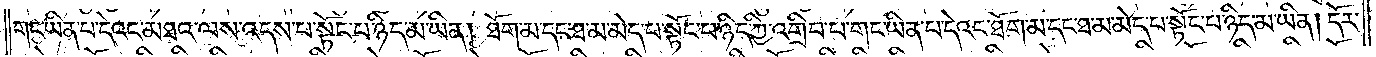གང་ཡིན་པ་དེའང་མཐའ་ལས་འདས་པ་སྟོང་པ་ཉིད་མ་ཡིན། ཐོག་མ་དང་ཐ་མ་མེད་པ་སྟོང་པ་ཉིད་ཀྱི་འགྲིབ་པ་གང་ཡིན་པ་དེའང་ཐོག་མ་དང་ཐ་མ་མེད་པ་སྟོང་པ་ཉིད་མ་ཡིན། དོར་
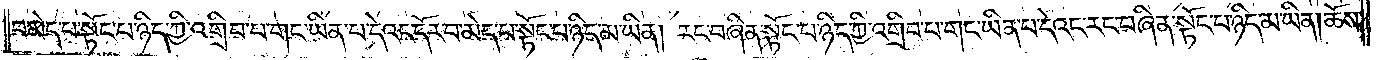པ་མེད་པ་སྟོང་པ་ཉིད་ཀྱི་འགྲིབ་པ་གང་ཡིན་པ་དེའང་དོར་བ་མེད་པ་སྟོང་པ་ཉིད་མ་ཡིན། རང་བཞིན་སྟོང་པ་ཉིད་ཀྱི་འགྲིབ་པ་གང་ཡིན་པ་དེའང་རང་བཞིན་སྟོང་པ་ཉིད་མ་ཡིན། ཆོས་
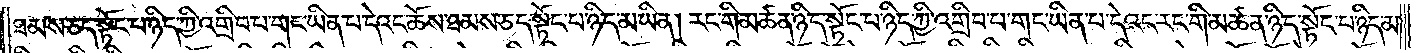ཐམས་ཅད་སྟོང་པ་ཉིད་ཀྱི་འགྲིབ་པ་གང་ཡིན་པ་དེའང་ཆོས་ཐམས་ཅད་སྟོང་པ་ཉིད་མ་ཡིན། རང་གི་མཚན་ཉིད་སྟོང་པ་ཉིད་ཀྱི་འགྲིབ་པ་གང་ཡིན་པ་དེའང་རང་གི་མཚན་ཉིད་སྟོང་པ་ཉིད་མ་
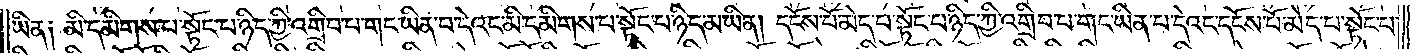ཡིན༏ མི་དམིགས་པ་སྟོང་པ་ཉིད་ཀྱི་འགྲིབ་པ་གང་ཡིན་པ་དེའང་མི་དམིགས་པ་སྟོང་པ་ཉིད་མ་ཡིན། དངོས་པོ་མེད་པ་སྟོང་པ་ཉིད་ཀྱི་འགྲིབ་པ་གང་ཡིན་པ་དེའང་དངོས་པོ་མེད་པ་སྟོང་པ་
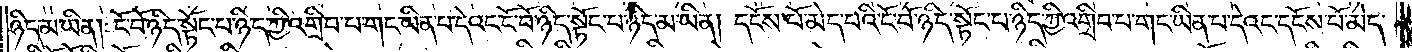ཉིད་མ་ཡིན། ངོ་བོ་ཉིད་སྟོང་པ་ཉིད་ཀྱི་འགྲིབ་པ་གང་ཡིན་པ་དེའང་ངོ་བོ་ཉིད་སྟོང་པ་ཉིད་མ་ཡིན། དངོས་པོ་མེད་པའི་ངོ་བོ་ཉིད་སྟོང་པ་ཉིད་ཀྱི་འགྲིབ་པ་གང་ཡིན་པ་དེའང་དངོས་པོ་མེད་
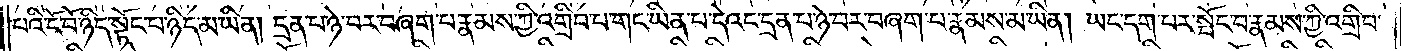པའི་ངོ་བོ་ཉིད་སྟོང་པ་ཉིད་མ་ཡིན། དྲན་པ་ཉེ་བར་བཞག་པ་རྣམས་ཀྱི་འགྲིབ་པ་གང་ཡིན་པ་དེའང་དྲན་པ་ཉེ་བར་བཞག་པ་རྣམས་མ་ཡིན། ཡང་དག་པར་སྤོང་བ་རྣམས་ཀྱི་འགྲིབ་
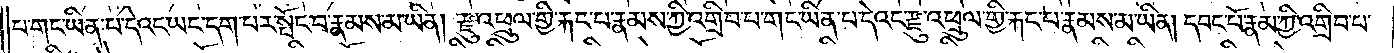པ་གང་ཡིན་པ་དེའང་ཡང་དག་པར་སྤོང་བ་རྣམས་མ་ཡིན། རྫུ་འཕྲུལ་གྱི་རྐང་པ་རྣམས་ཀྱི་འགྲིབ་པ་གང་ཡིན་པ་དེའང་རྫུ་འཕྲུལ་གྱི་རྐང་པ་རྣམས་མ་ཡིན། དབང་པོ་རྣམས་ཀྱི་འགྲིབ་པ་
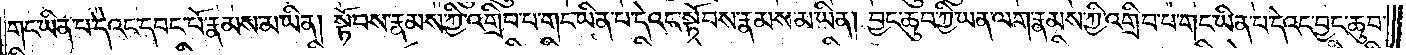གང་ཡིན་པ་དེའང་དབང་པོ་རྣམས་མ་ཡིན། སྟོབས་རྣམས་ཀྱི་འགྲིབ་པ་གང་ཡིན་པ་དེའང་སྟོབས་རྣམས་མ་ཡིན། བྱང་ཆུབ་ཀྱི་ཡན་ལག་རྣམས་ཀྱི་འགྲིབ་པ་གང་ཡིན་པ་དེའང་བྱང་ཆུབ་
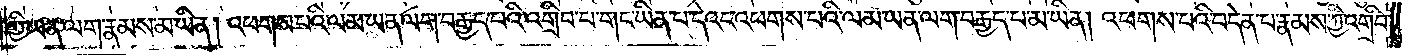ཀྱི་ཡན་ལག་རྣམས་མ་ཡིན། འཕགས་པའི་ལམ་ཡན་ལག་བརྒྱད་པའི་འགྲིབ་པ་གང་ཡིན་པ་དེའང་འཕགས་པའི་ལམ་ཡན་ལག་བརྒྱད་པ་མ་ཡིན། འཕགས་པའི་བདེན་པ་རྣམས་ཀྱི་འགྲིབ་
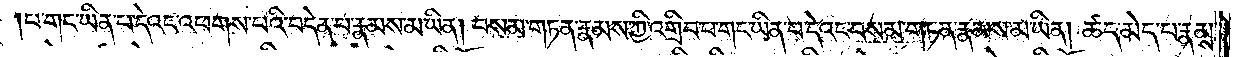པ་གང་ཡིན་པ་དེའང་འཕགས་པའི་བདེན་པ་རྣམས་མ་ཡིན། བསམ་གཏན་རྣམས་ཀྱི་འགྲིབ་པ་གང་ཡིན་པ་དེའང་བསམ་གཏན་རྣམས་མ་ཡིན། ཚད་མེད་པ་རྣམས་
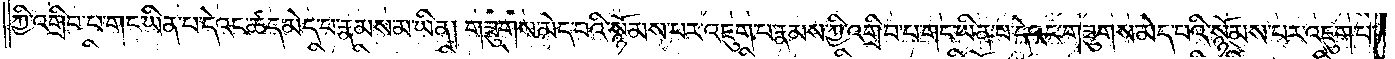ཀྱི་འགྲིབ་པ་གང་ཡིན་པ་དེའང་ཚད་མེད་པ་རྣམས་མ་ཡིན། གཟུགས་མེད་པའི་སྙོམས་པར་འཇུག་པ་རྣམས་ཀྱི་འགྲིབ་པ་གང་ཡིན་པ་དེའང་གཟུགས་མེད་པའི་སྙོམས་པར་འཇུག་པ་
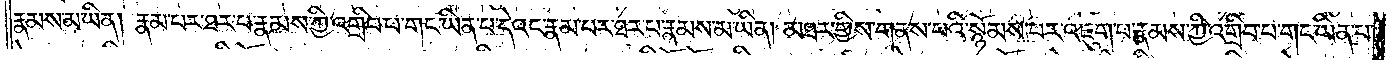རྣམས་མ་ཡིན། རྣམ་པར་ཐར་པ་རྣམས་ཀྱི་འགྲིབ་པ་གང་ཡིན་པ་དེའང་རྣམ་པར་ཐར་པ་རྣམས་མ་ཡིན། མཐར་གྱིས་གནས་པའི་སྙོམས་པར་འཇུག་པ་རྣམས་ཀྱི་འགྲིབ་པ་གང་ཡིན་པ་
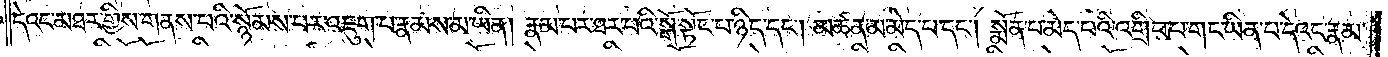དེའང་མཐར་གྱིས་གནས་པའི་སྙོམས་པར་འཇུག་པ་རྣམས་མ་ཡིན། རྣམ་པར་ཐར་པའི་སྒོ་སྟོང་པ་ཉིད་དང༌། མཚན་མ་མེད་པ་དང༌། སྨོན་པ་མེད་པའི་འགྲིབ་པ་གང་ཡིན་པ་དེའང་རྣམ་
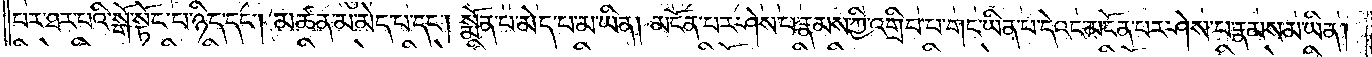པར་ཐར་པའི་སྒོ་སྟོང་པ་ཉིད་དང༌། མཚན་མ་མེད་པ་དང༌། སྨོན་པ་མེད་པ་མ་ཡིན། མངོན་པར་ཤེས་པ་རྣམས་ཀྱི་འགྲིབ་པ་གང་ཡིན་པ་དེའང་མངོན་པར་ཤེས་པ་རྣམས་མ་ཡིན།
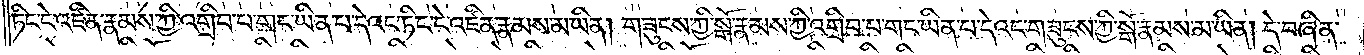ཏིང་ངེ་འཛིན་རྣམས་ཀྱི་འགྲིབ་པ་གང་ཡིན་པ་དེའང་ཏིང་ངེ་འཛིན་རྣམས་མ་ཡིན། གཟུངས་ཀྱི་སྒོ་རྣམས་ཀྱི་འགྲིབ་པ་གང་ཡིན་པ་དེའང་གཟུངས་ཀྱི་སྒོ་རྣམས་མ་ཡིན། དེ་བཞིན་
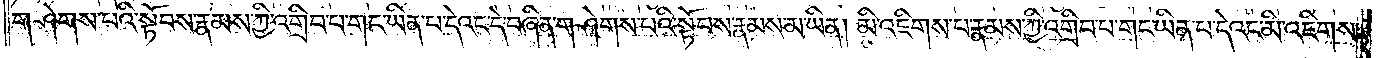གཤེགས་པའི་སྟོབས་རྣམས་ཀྱི་འགྲིབ་པ་གང་ཡིན་པ་དེའང་དེ་བཞིན་གཤེགས་པའི་སྟོབས་རྣམས་མ་ཡིན། མི་འཇིགས་པ་རྣམས་ཀྱི་འགྲིབ་པ་གང་ཡིན་པ་དེའང་མི་འཇིགས་
